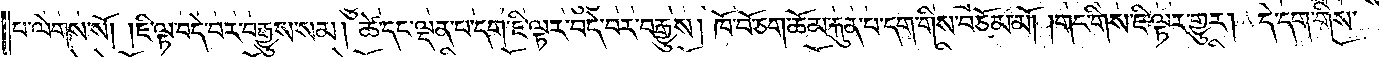པ་ལེགས་སོ། །ཇི་ལྟ་བདེ་བར་བརྒྱུས་སམ། ཚེ་དང་ལྡན་པ་དག་ཇི་ལྟར་བདེ་བར་བརྒྱུས། ཁོ་བོ་ཅག་ཆོམ་རྐུན་པ་དག་གིས་བཅོམ་མོ། །གང་གིས་ཇི་ལྟར་གྱུར། དེ་དག་གིས་
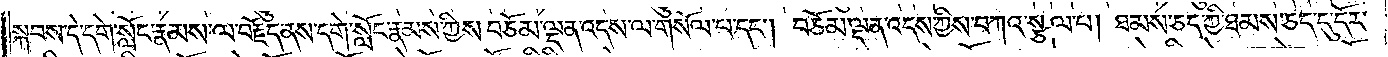སྐབས་དེ་དགེ་སློང་རྣམས་ལ་བརྗོད་ནས་དགེ་སློང་རྣམས་ཀྱིས་བཅོམ་ལྡན་འདས་ལ་གསོལ་བ་དང༌། བཅོམ་ལྡན་འདས་ཀྱིས་བཀའ་སྩལ་པ། ཐམས་ཅད་ཀྱི་ཐམས་ཅད་དུ་དོར་
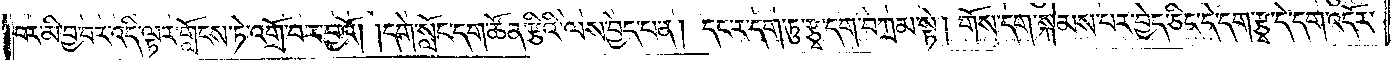བར་མི་བྱ་བར་འདི་ལྟར་གློངས་ཏེ་འགྲོ་བར་བྱའོ། །དགེ་སློང་དག་ཚོན་རྩྭའི་ལས་བྱེད་པ་ན། དང་ར་དག་ཏུ་རྩྭ་དག་བཀྲམ་སྟེ། གོས་དག་སྐེམས་པར་བྱེད་ཅིང་དེ་དག་རྩྭ་དེ་དག་འདོར་
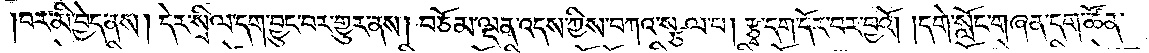བར་མི་བྱེད་ནས། དེར་སྲིལ་དག་བྱུང་བར་གྱུར་ནས། བཅོམ་ལྡན་འདས་ཀྱིས་བཀའ་སྩལ་པ། རྩྭ་དག་དོར་བར་བྱའོ། །དགེ་སློང་གཞན་དག་ཚོན་
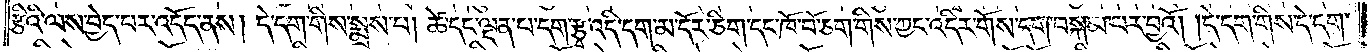རྩིའི་ལས་བྱེད་པར་འདོད་ནས། དེ་དག་གིས་སྨྲས་པ། ཚེ་དང་ལྡན་པ་དག་རྩྭ་འདི་དག་མ་དོར་ཅིག་དང་ཁོ་བོ་ཅག་གིས་ཀྱང་འདིར་གོས་དག་བསྐམ་པར་བྱའོ། །དེ་དག་གིས་དེ་དག་
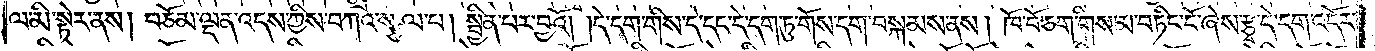ལ་མི་སྟེར་ནས། བཅོམ་ལྡན་འདས་ཀྱིས་བཀའ་སྩལ་པ། སྦྱིན་པར་བྱའོ། །དེ་དག་གིས་དེ་དང་དེ་དག་ཏུ་གོས་དག་བསྐམས་ནས། ཁོ་བོ་ཅག་གིས་མ་བཏིང་ངོ་ཞེས་རྩྭ་དེ་དག་འདོར་
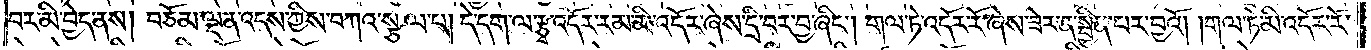བར་མི་བྱེད་ནས། བཅོམ་ལྡན་འདས་ཀྱིས་བཀའ་སྩལ་པ། དེ་དག་ལ་རྩྭ་འདོར་རམ་མི་འདོར་ཞེས་དྲི་བར་བྱ་ཞིང༌། གལ་ཏེ་འདོར་རོ་ཞེས་ཟེར་ན་སྦྱིན་པར་བྱའོ། །གལ་ཏེ་མི་འདོར་རོ་
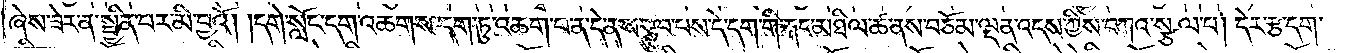ཞེས་ཟེར་ན་སྦྱིན་པར་མི་བྱའོ། །དགེ་སློང་དག་འཆག་ས་དག་ཏུ་འཆག་པ་ན་དེ་ནས་རྩུབ་པས་དེ་དག་གི་རྐང་མཐིལ་ཚ་ནས་བཅོམ་ལྡན་འདས་ཀྱིས་བཀའ་སྩལ་པ། དེར་རྩ་དག་
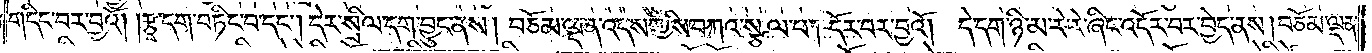གདིང་བར་བྱའོ། །རྩྭ་དག་བཏིང་བ་དང༌། དེར་སྲིལ་དག་བྱུང་ནས། བཅོམ་ལྡན་འདས་ཀྱིས་བཀའ་སྩལ་པ། དོར་བར་བྱའོ། །དེ་དག་ཉི་མ་རེ་རེ་ཞིང་འདོར་བར་བྱེད་ནས། བཅོམ་ལྡན་
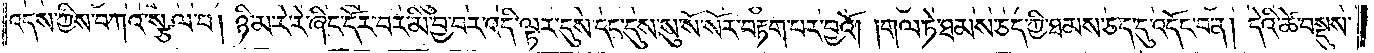འདས་ཀྱིས་བཀའ་སྩལ་པ། ཉི་མ་རེ་རེ་ཞིང་དོར་བར་མི་བྱ་བར་འདི་ལྟར་དུས་དང་དུས་སུ་སོ་སོར་བརྟག་པར་བྱའོ། །གལ་ཏེ་ཐམས་ཅད་ཀྱི་ཐམས་ཅད་དུ་འདོང་བ་ན། དེའི་ཚེ་བསྡུས་
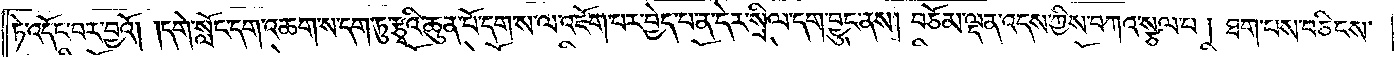ཏེ་འདོང་བར་བྱའོ། །དགེ་སློང་དག་འཆག་ས་དག་ཏུ་རྩྭའི་ཆུན་པོ་དག་ས་ལ་འཇོག་པར་བྱེད་པ་ན་དེར་སྲིལ་དག་བྱུང་ནས། བཅོམ་ལྡན་འདས་ཀྱིས་བཀའ་སྩལ་པ། ཐག་པས་བཅིངས་
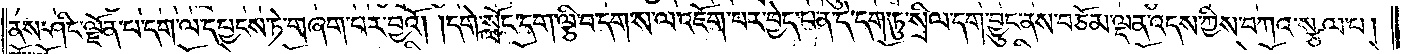ནས་ཤིང་ལྗོན་པ་དག་ལ་དཔྱངས་ཏེ་གཞག་པར་བྱའོ། །དགེ་སློང་དག་ལྕི་བ་དག་ས་ལ་འཇོག་པར་བྱེད་པ་ན་དེ་དག་ཏུ་སྲིལ་དག་བྱུང་ནས་བཅོམ་ལྡན་འདས་ཀྱིས་བཀའ་སྩལ་པ།
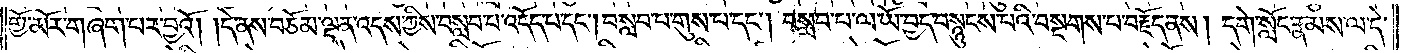གྱོ་མོར་གཞག་པར་བྱའོ། །དེ་ནས་བཅོམ་ལྡན་འདས་ཀྱིས་བསླབ་པ་འདོད་པ་དང༌། བསླབ་པ་གུས་པ་དང༌། བསླབ་པ་ལ་ཡོ་བྱད་བསྙུངས་པའི་བསྔགས་པ་བརྗོད་ནས། དགེ་སློང་རྣམས་ལ་དེ་
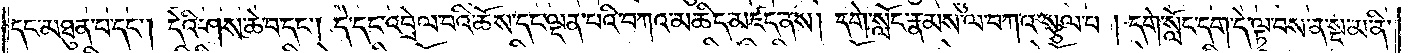དང་མཐུན་པ་དང༌། དེའི་ཤད་ཆེ་བ་དང༌། དེ་དང་འབྲེལ་བའི་ཆོས་དང་ལྡན་པའི་བཀའ་མཆིད་མཛད་ནས། དགེ་སློང་རྣམས་ལ་བཀའ་སྩལ་པ། དགེ་སློང་དག་དེ་ལྟ་བས་ན་སྔ་མ་ནི་
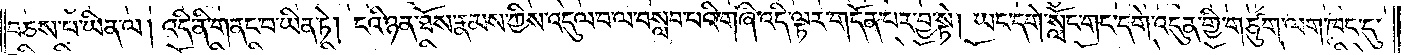བཅས་པ་ཡིན་ལ། འདི་ནི་གནང་བ་ཡིན་ཏེ། ངའི་ཉན་ཐོས་རྣམས་ཀྱིས་འདུལ་བ་ལ་བསླབ་པའི་གཞི་འདི་ལྟར་གདོན་པར་བྱ་སྟེ། ཡང་དགེ་སློང་གང་དགེ་འདུན་གྱི་གཙུག་ལག་ཁང་དུ་
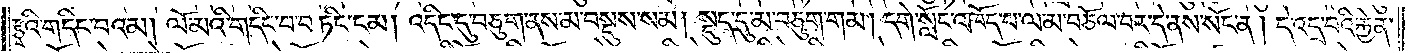རྩྭའི་གདིང་བའམ། ལོ་མའི་གདིང་བ་བཏིང་ངམ། འདིང་དུ་བཅུག་ནས་མ་བསྡུས་སམ། སྡུད་དུ་མ་བཅུག་གམ། དགེ་སློང་འཁོད་པ་ལ་མ་བཅོལ་བར་དེ་ནས་སོང་ན། དེ་འདྲ་བའི་རྐྱེན་
